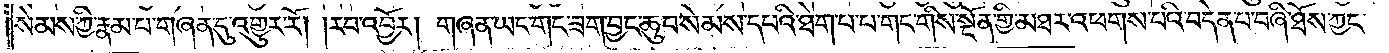སེམས་ཀྱི་རྣམ་པ་གཞན་དུ་འགྱུར་རོ། །རབ་འབྱོར། གཞན་ཡང་གང་ཟག་བྱང་ཆུབ་སེམས་དཔའི་ཐེག་པ་པ་གང་གིས་སྔོན་གྱིས་མཐར་འཕགས་པའི་བདེན་པ་བཞི་ཐོས་ཀྱང་
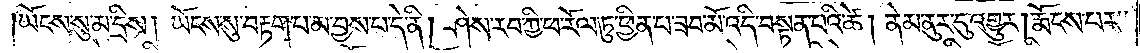ཡོངས་སུ་མ་དྲིས། ཡོངས་སུ་བརྟག་པ་མ་བྱས་པ་དེ་ནི། ཤེས་རབ་ཀྱི་ཕ་རོལ་ཏུ་ཕྱིན་པ་ཟབ་མོ་འདི་བསྟན་པའི་ཚེ། ནེམ་ནུར་དུ་འགྱུར། རྨོངས་པར་
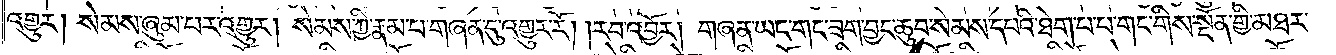འགྱུར། སེམས་ཞུམ་པར་འགྱུར། སེམས་ཀྱི་རྣམ་པ་གཞན་དུ་འགྱུར་རོ། །རབ་འབྱོར། གཞན་ཡང་གང་ཟག་བྱང་ཆུབ་སེམས་དཔའི་ཐེག་པ་པ་གང་གིས་སྔོན་གྱིས་མཐར་
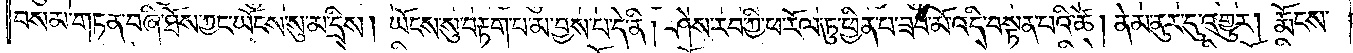བསམ་གཏན་བཞི་ཐོས་ཀྱང་ཡོངས་སུ་མ་དྲིས། ཡོངས་སུ་བརྟག་པ་མ་བྱས་པ་དེ་ནི། ཤེས་རབ་ཀྱི་ཕ་རོལ་ཏུ་ཕྱིན་པ་ཟབ་མོ་འདི་བསྟན་པའི་ཚེ། ནེམ་ནུར་དུ་འགྱུར། རྨོངས་
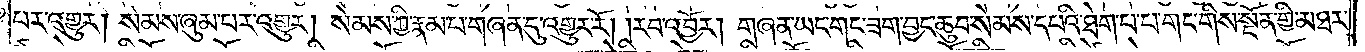པར་འགྱུར། སེམས་ཞུམ་པར་འགྱུར། སེམས་ཀྱི་རྣམ་པ་གཞན་དུ་འགྱུར་རོ། །རབ་འབྱོར། གཞན་ཡང་གང་ཟག་བྱང་ཆུབ་སེམས་དཔའི་ཐེག་པ་པ་གང་གིས་སྔོན་གྱི་མཐར་
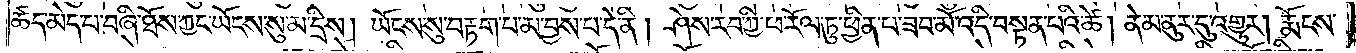ཚད་མེད་པ་བཞི་ཐོས་ཀྱང་ཡོངས་སུ་མ་དྲིས། ཡོངས་སུ་བརྟག་པ་མ་བྱས་པ་དེ་ནི། ཤེས་རབ་ཀྱི་ཕ་རོལ་ཏུ་ཕྱིན་པ་ཟབ་མོ་འདི་བསྟན་པའི་ཚེ། ནེམ་ནུར་དུ་འགྱུར། རྨོངས་
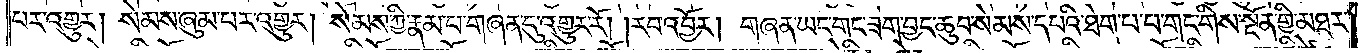པར་འགྱུར། སེམས་ཞུམ་པར་འགྱུར། སེམས་ཀྱི་རྣམ་པ་གཞན་དུ་འགྱུར་རོ། །རབ་འབྱོར། གཞན་ཡང་གང་ཟག་བྱང་ཆུབ་སེམས་དཔའི་ཐེག་པ་པ་གང་གིས་སྔོན་གྱི་མཐར་
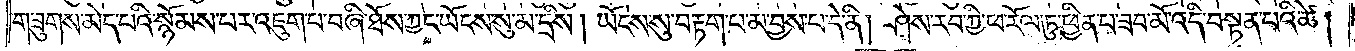གཟུགས་མེད་པའི་སྙོམས་པར་འཇུག་པ་བཞི་ཐོས་ཀྱང་ཡོངས་སུ་མ་དྲིས། ཡོངས་སུ་བརྟག་པ་མ་བྱས་པ་དེ་ནི། ཤེས་རབ་ཀྱི་ཕ་རོལ་ཏུ་ཕྱིན་པ་ཟབ་མོ་འདི་བསྟན་པའི་ཚེ།
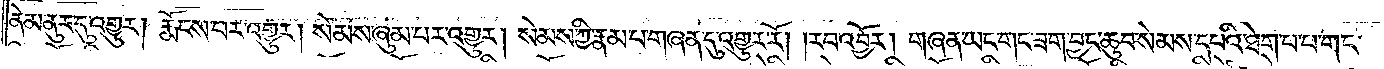ནེམ་ནུར་དུ་འགྱུར། རྨོངས་པར་འགྱུར། སེམས་ཞུམ་པར་འགྱུར། སེམས་ཀྱི་རྣམ་པ་གཞན་དུ་འགྱུར་རོ། །རབ་འབྱོར། གཞན་ཡང་གང་ཟག་བྱང་ཆུབ་སེམས་དཔའི་ཐེག་པ་པ་གང་
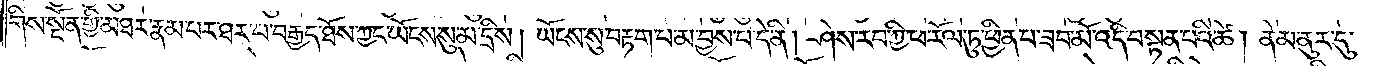གིས་སྔོན་གྱི་མཐར་རྣམ་པར་ཐར་པ་བརྒྱད་ཐོས་ཀྱང་ཡོངས་སུ་མ་དྲིས། ཡོངས་སུ་བརྟག་པ་མ་བྱས་པ་དེ་ནི། ཤེས་རབ་ཀྱི་ཕ་རོལ་ཏུ་ཕྱིན་པ་ཟབ་མོ་འདི་བསྟན་པའི་ཚེ། ནེམ་ནུར་དུ་
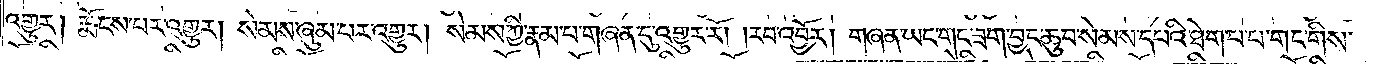འགྱུར། རྨོངས་པར་འགྱུར། སེམས་ཞུམ་པར་འགྱུར། སེམས་ཀྱི་རྣམ་པ་གཞན་དུ་འགྱུར་རོ། །རབ་འབྱོར། གཞན་ཡང་གང་ཟག་བྱང་ཆུབ་སེམས་དཔའི་ཐེག་པ་པ་གང་གིས་
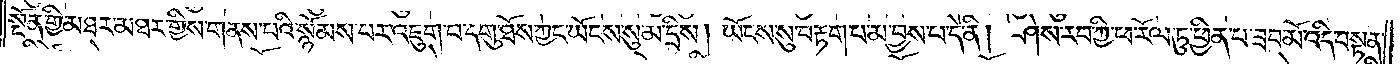སྔོན་གྱི་མཐར་མཐར་གྱིས་གནས་པའི་སྙོམས་པར་འཇུག་པ་དགུ་ཐོས་ཀྱང་ཡོངས་སུ་མ་དྲིས། ཡོངས་སུ་བརྟག་པ་མ་བྱས་པ་དེ་ནི། ཤེས་རབ་ཀྱི་ཕ་རོལ་ཏུ་ཕྱིན་པ་ཟབ་མོ་འདི་བསྟན་
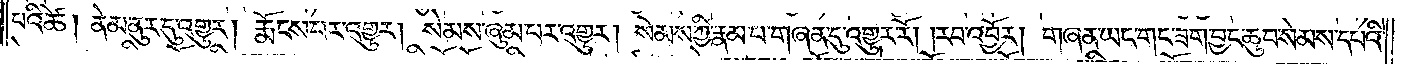པའི་ཚེ། ནེམ་ནུར་དུ་འགྱུར། རྨོངས་པར་འགྱུར། སེམས་ཞུམ་པར་འགྱུར། སེམས་ཀྱི་རྣམ་པ་གཞན་དུ་འགྱུར་རོ། །རབ་འབྱོར། གཞན་ཡང་གང་ཟག་བྱང་ཆུབ་སེམས་དཔའི་
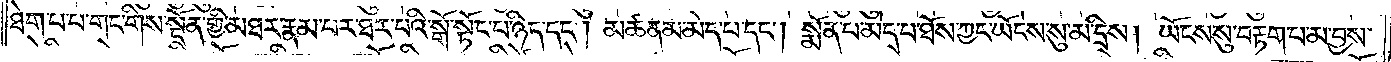ཐེག་པ་པ་གང་གིས་སྔོན་གྱི་མཐར་རྣམ་པར་ཐར་པའི་སྒོ་སྟོང་པ་ཉིད་དང༌། མཚན་མ་མེད་པ་དང༌། སྨོན་པ་མེད་པ་ཐོས་ཀྱང་ཡོངས་སུ་མ་དྲིས། ཡོངས་སུ་བརྟག་པ་མ་བྱས་
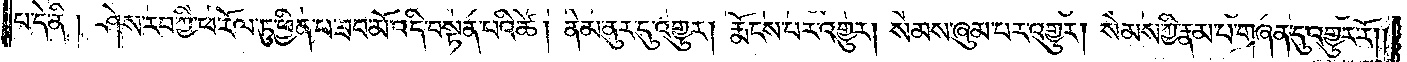པ་དེ་ནི། ཤེས་རབ་ཀྱི་ཕ་རོལ་ཏུ་ཕྱིན་པ་ཟབ་མོ་འདི་བསྟན་པའི་ཚེ། ནེམ་ནུར་དུ་འགྱུར། རྨོངས་པར་འགྱུར། སེམས་ཞུམ་པར་འགྱུར། སེམས་ཀྱི་རྣམ་པ་གཞན་དུ་འགྱུར་རོ། །
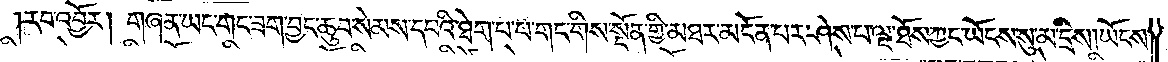རབ་འབྱོར། གཞན་ཡང་གང་ཟག་བྱང་ཆུབ་སེམས་དཔའི་ཐེག་པ་པ་གང་གིས་སྔོན་གྱི་མཐར་མངོན་པར་ཤེས་པ་ལྔ་ཐོས་ཀྱང་ཡོངས་སུ་མ་དྲིས། ཡོངས་
